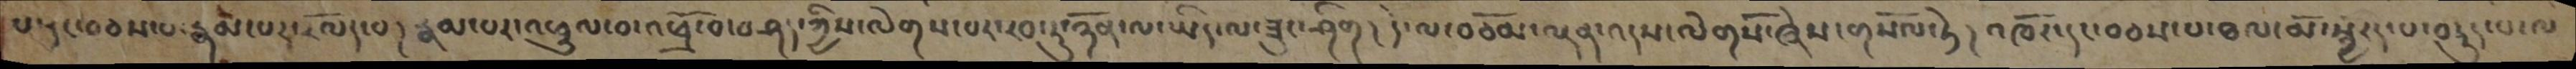པ་དང་བཅས་པ་རྣམ་པར་རོལད་པ། རྣམ་པར་འཕྲུལ་བ་འཕྲོ་བ་བཤད་ཀྱིས་ལེགས་པར་རབ་ཏུ་ཉོན་ལ་ཡིད་ལ་ཟུང་ཤིག། དེ་ལ་བཅོམ་ལྡན་འདས་ལེགསོ་ཞེས་གསོལ་ཏེ། འཁོར་དང་བཅས་པ་ཐལ་མོ་སྦྱརད་པ་བཏུད་པ་ལ
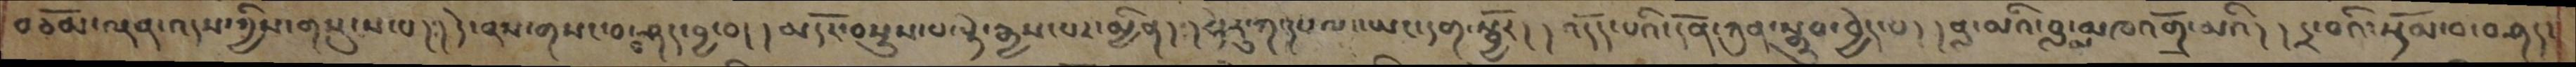བཅོམ་ལྡན་འདས་ཀྱིས་གསུངས་པ།། དེ་ནས་གསང་བ་བཤད་བྱ་བ། །མདོར་བསྡུས་པ་སྟེ་རྒྱས་པར་མྱིན། །ཧེ་རུ་ཀ་དཔལ་ཡང་དག་སྦྱོར། །འདོད་པའི་དོན་ཀུན་སྒྲུབ་བྱེད་པ། །བླ་མའི་བླ་མ་མཁའགྲོ་མའི། །དྲ་བའི་སྡོམ་བ་བཤད་
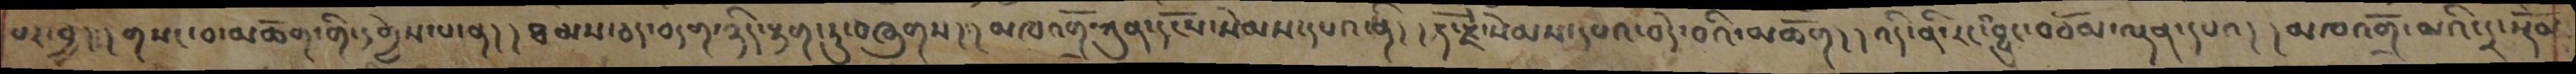པར་བྱད། །གསང་བ་མཆོག་ནི་དགྱེས་པ་ན་། །ཐམས་ཅད་བདག་ཉིད་རྟག་ཏུ་བཞུགས་། །མཁའགྲོ་ཀུན་དངོས་སེམས་དཔའ་ནི། །རྡོ་རྗེ་སེམས་དཔའ་བདེ་བའི་མཆོག། །འདི་ནི་རང་འབྱུང་བཅོམ་ལྡན་དཔའ་། །མཁའགྲོ་མའི་དྲ་སྟོན
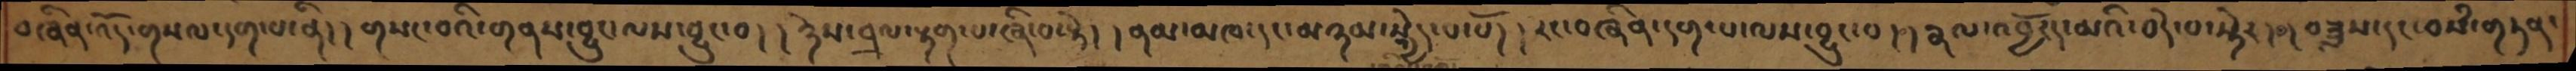བཞིན་འོད་གསལ་དག་པ་ནི། །གསང་བའི་གནས་བྱུང་ལས་བྱུང་བ། །ཉེས་བྲལ་རྟག་པ་ཞི་བ་སྟེ། །ནམ་མཁ་དང་མཉམ་སྐྱེད་པ་པོ། །རང་བཞིན་དག་པ་ལས་བྱུང་བ། །རྣལ་འབྱོརད་མའི་བདེ་བ་སྟེར། །བཟླས་དང་བསཾ་གཏན་
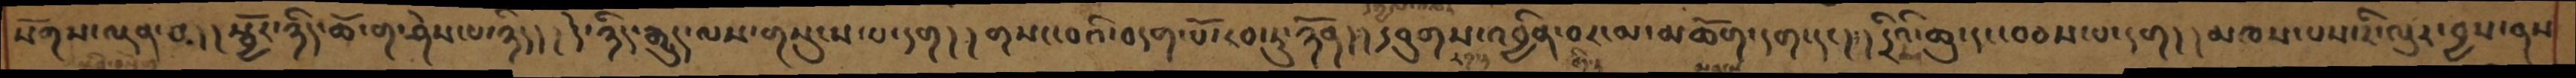སོགས་ལྡན་པ། །སྦྱོར་ཉིད་ཆོ་ག་ཤེས་པ་ཉིད། །དེ་ཉིད་རྒྱུད་ལས་གསུངས་པ་དག། །གསང་བའི་བདག་པོ་རབ་ཏུ་ཉོན། །དབུགས་འབྱིན་བར་མ་མཆོག་དག་དང། །དྲིའི་ཆུ་དང་བཅས་པ་དག། །མཁས་པས་རི་ལུར་བྱས་ནས
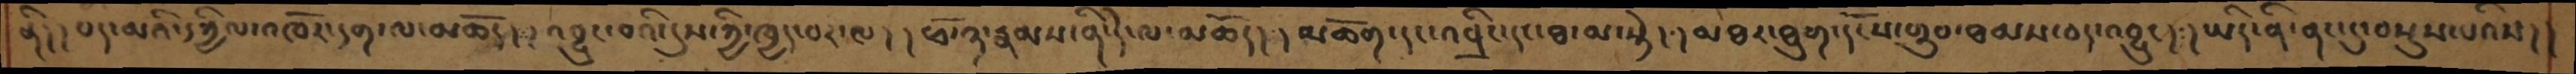ནི། །པད་མའི་དཀྱིལ་འཁོར་དག་ལ་མཆོད། །འབྱུང་བའི་དུས་ཀྱི་ཁྱད་པར་ལ། །ཕོ་ཉ་རྣམས་ནི་དེ་ལ་མཆོད། །མཆོག་དང་འབྲིང་དང་ཐ་མ་སྟེ། །མཐར་ཐུག་དངོས་གྲུབ་ཐམས་ཅད་འབྱུང། །ཡིད་ནི་ནང་དུ་བསྡུས་པའིས། །
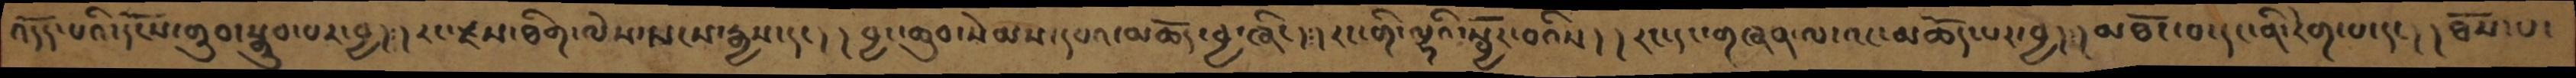འདོད་པའི་དངོས་གྲུབ་སྒྲུབ་པར་བྱ་།༴།རང་སྫས་ཐིག་ལེས་སངས་རྒྱས་དང། །བྱང་ཆུབ་སེམས་དཔའ་མཆོད་བྱ་ཞིང།༴། རང་གི་ལྷའི་སྦྱོར་བའིས། ། རང་དང་གཞན་ལ་འང་མཆོད་པར་བྱ་།༴།མཐོང་བ་དང་ནི་རེག་པ་དང་། །ཐོས་པ་
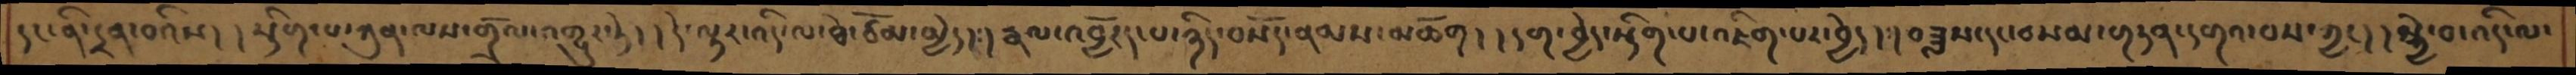དང་ནི་དྲན་བའིས། ། སྡིག་པ་ཀུན་ལས་གོལ་འགྱུར་ཏེ། །དེ་ལྟར་འདི་ལ་ཐེ་ཙོམ་མྱེད།༴།རྣལ་འབྱོརད་པ་ཉིད་བསོད་ནམས་མཆོག། །དག་བྱེད་སྡིག་པ་འཇིག་པར་བྱེད་།༴།བཟླས་དང་བསམ་གཏན་དགའ་བས་ཀྱང། ། སྐྱེ་བ་འདི་ལ་
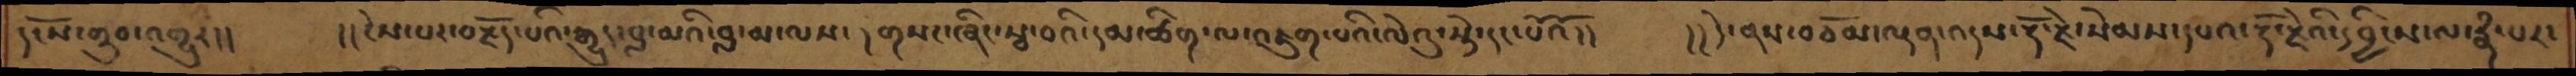དངོས་གྲུབ་འགྱུར།།  །།ངེས་པར་བརྗོད་པའི་རྒྱུད་བླ་མའི་བླ་མ་ལས་ ། གསང་ཞིང་སྦ་བའི་དམ་ཚིག་ལ་འཇུག་པའི་ལེའུ་སྟེ་དང་པོའོ།།    །། དེ་ནས་བཅོམ་ལྡན་འདས་རྡོ་རྗེ་སེམས་དཔའ་རྡོ་རྗེའི་དབྱིངས་ལ་རྣཾ་པར་
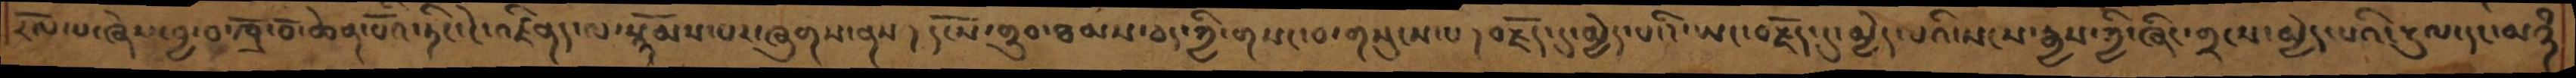རོལ་པ་ཞེས་བྱ་བ་ཁྲོ་བོ་ཆེན་པོའི་ཏིང་ངེ་འཛིནད་ལ་སྙོམས་པར་ཞུགས་ནས། །དངོས་གྲུབ་ཐམས་ཅད་ཀྱི་གསང་བ་གསུངས་པ །བརྗོད་དུ་མྱེད་པའི་ཡང་བརྗོད་དུ་མྱེད་པའི་སངས་རྒྱས་ཀྱི་ཞིང་གྲངས་མྱེད་པའི་རྡུལ་དང་མཉཾ
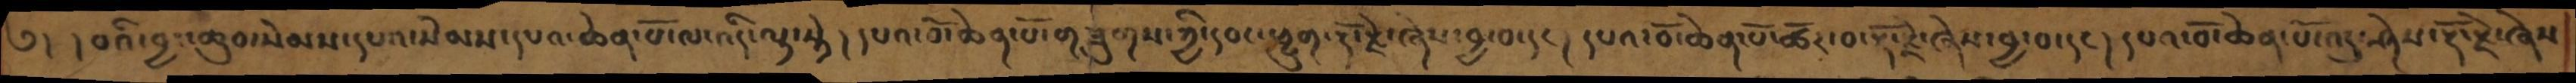༅།  །བའི་བྱང་ཆུབ་སེམས་དཔའ་སེམས་དཔའ་ཆེན་པོ་ལ་འདི་ལྟ་སྟེ ། དཔའ་བོ་ཆེན་པོ་གཟུགས་ཀྱི་དབང་ཕྱུག་རྡོ་རྗེ་ཞེས་བྱ་བ་དང །དཔའ་བོ་ཆེན་པོ་ཚོར་བ་རྡོ་རྗེ་ཞེས་བྱ་བ་དང །དཔའ་བོ་ཆེན་པོ་འདུ་ཤེས་རྡོ་རྗེ་ཞེས
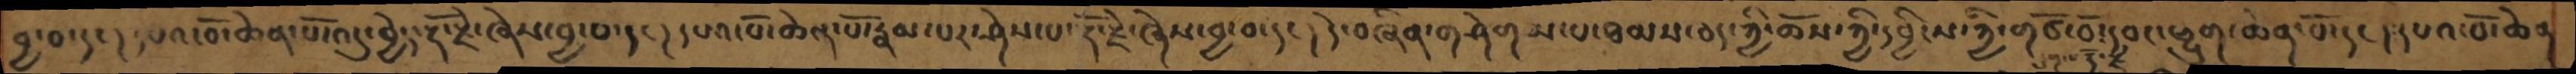བྱ་བ་དང། དཔའ་བོ་ཆེན་པོ་འདུ་བྱེད་རྡོ་རྗེ་ཞེས་བྱ་བ་དང། དཔའ་བོ་ཆེན་པོ་རྣམ་པར་ཤེས་པ་རྡོ་རྗེ་ཞེས་བྱ་བ་དང། དེ་བཞིན་གཤེགས་པ་ཐམས་ཅད་ཀྱི་ཆོས་ཀྱི་དབྱིངས་ཀྱི་གཙོ་བོ་དབང་ཕྱུག་ཆེན་པོ་དང། དཔའ་བོ་ཆེན
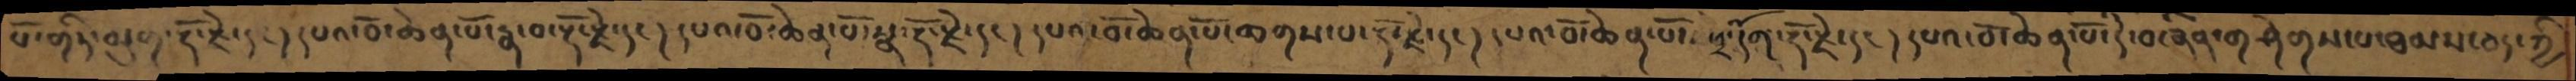པོ་གཏི་མུག་རྡོ་རྗེ་དང །དཔའ་བོ་ཆེན་པོ་རྣ་བ་རྡོ་རྗེ་དང །དཔའ་བོ་ཆེན་པོ་སྣ་རྡོ་རྗེ་དང །དཔའ་བོ་ཆེན་པོ་ཆགས་པ་རྡེ་རྗེ་དང །དཔའ་བོ་ཆེན་པོ་ ཕྲ་དོག་རྡོ་རྗེ་དང །དཔའ་བོ་ཆེན་པོ་དེ་བཞིན་གཤེགས་པ་ཐམས་ཅད་ཀྱི
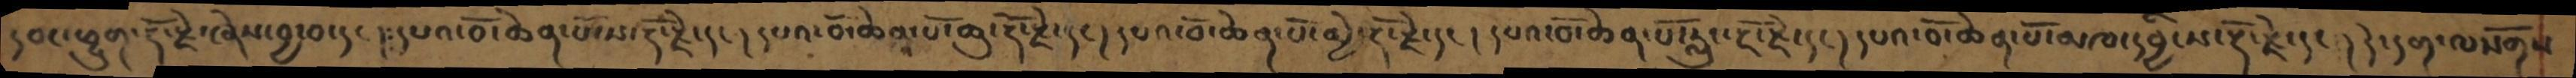དབང་ཕྱུག་རྡོ་རྗེ་ཞེས་བྱ་བ་དང །༴དཔའ་བོ་ཆེན་པོ་ས་རྡོ་རྗེ་དང །དཔའ་བོ་ཆེན་པོ་ཆུ་རྡོ་རྗེ་དང། དཔའ་བོ་ཆེན་པོ་མྱེ་རྡོ་རྗེ་དང། དཔའ་བོ་ཆེན་པོ་རླུང་རྡོ་རྗེ་དང །དཔའ་བོ་ཆེན་པོ་མཁ་དབྱིངས་རྡོ་རྗེ་དང ། དེ་དག་ལསོགས
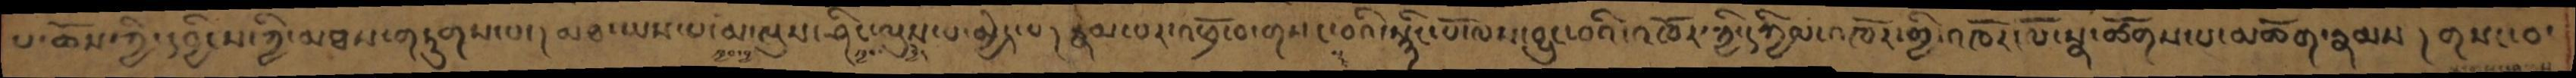པ་ཆོས་ཀྱི་དབྱིངས་ཀྱི་མཐས་གཏུགས་པ་ ། མཐ་ཡས་པ་མ་ལུས་ཤིང་ལུས་པ་མྱེད་པ། རྣམ་པར་འཕྲོ་བ་གསང་བའི་སྙིང་པོ་ལས་བྱུང་བའི་འཁོར་ཀྱི་དཀྱིལ་འཁོར་གྱི་འཁོར་ལོ་སྣ་ཚོགས་པ་མཆོག་རྣམས། གསང་བ་
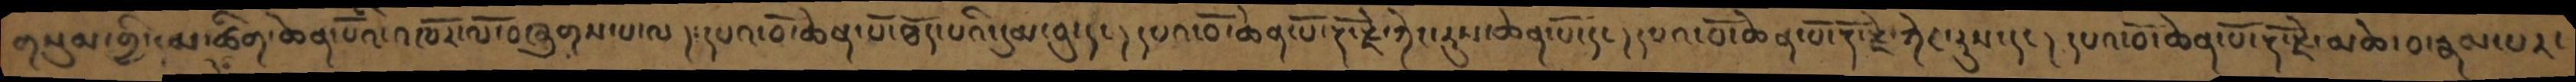གསུམ་གྱི་དམ་ཚིག་ཆེན་པོའི་འཁོར་ལོ་བཞུགས་པ་ལ། དཔའ་བོ་ཆེན་པོ་ཐོད་པའི་དུམ་བུ་དང། དཔའ་བོ་ཆེན་པོ་རྡོ་རྗེ་ཀེང་རུས་ཆེན་པོ་དང། དཔའ་བོ་ཆེན་པོ་རྡོ་རྗེ་ཀེང་རུས་དང་། དཔའ་བོ་ཆེན་པོ་རྡོ་རྗེ་མཆེ་བ་རྣམ་པར་
